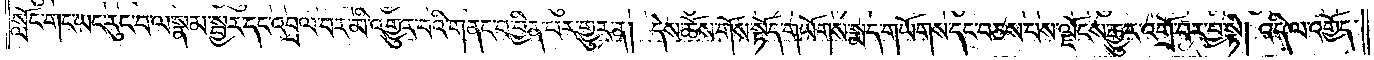སློང་གང་ཡང་རུང་བ་ལ་སྣམ་སྦྱར་དང་འབྲལ་བར་མི་འགྱུར་བའི་གནང་བ་བྱིན་པར་གྱུར་ན། དེས་ཆོས་གོས་སྟོད་གཡོགས་སྨད་གཡོགས་དང་བཅས་པས་ལྗོངས་རྒྱུར་འགྲོ་བར་བྱ་སྟེ། འདི་ལ་འགྱོད་
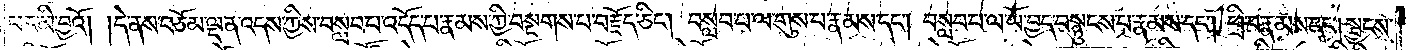པར་མི་བྱའོ། །དེ་ནས་བཅོམ་ལྡན་འདས་ཀྱིས་བསླབ་པ་འདོད་པ་རྣམས་ཀྱི་བསྔགས་པ་བརྗོད་ཅིང༌། བསླབ་པ་ལ་གུས་པ་རྣམས་དང༌། བསླབ་པ་ལ་ཡོ་བྱད་བསྙུངས་པ་རྣམས་དང༌། ཕྲི་བ་རྣམས་དང༌། སྦྱངས་
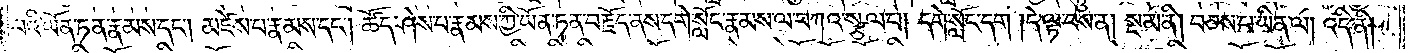པའི་ཡོན་ཏན་རྣམས་དང༌། མཛེས་པ་རྣམས་དང༌། ཚོད་ཤེས་པ་རྣམས་ཀྱི་ཡོན་ཏན་བརྗོད་ནས་དགེ་སློང་རྣམས་ལ་བཀའ་སྩལ་པ། དགེ་སློང་དག །དེ་ལྟ་བས་ན། སྔ་མ་ནི། བཅས་པ་ཡིན་ལ། འདི་ནི།
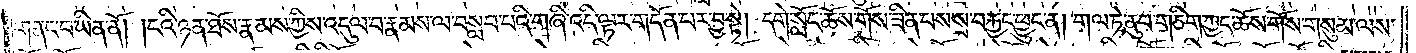གནང་བ་ཡིན་ནོ། །ངའི་ཉན་ཐོས་རྣམས་ཀྱིས་འདུལ་བ་རྣམས་ལ་བསླབ་པའི་གཞི་འདི་ལྟར་གདོན་པར་བྱ་སྟེ། དགེ་སློང་ཆོས་གོས་ཟིན་པས་སྲ་བརྐྱང་ཕྱུང་ན། གལ་ཏེ་ནུབ་གཅིག་ཀྱང་ཆོས་གོས་གསུམ་ལས་
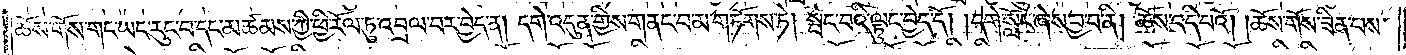ཆོས་གོས་གང་ཡང་རུང་བ་དང་མཚམས་ཀྱི་ཕྱི་རོལ་ཏུ་འབྲལ་བར་བྱེད་ན། དགེ་འདུན་གྱིས་གནང་བ་མ་གཏོགས་ཏེ། སྤང་བའི་ལྟུང་བྱེད་དོ། །དགེ་སློང་ཞེས་བྱ་བ་ནི། ཆོས་འདི་པའོ། །ཆོས་གོས་ཟིན་པས་
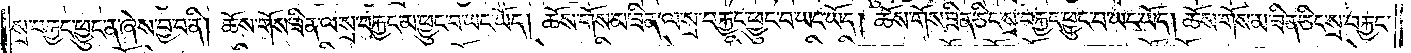སྲ་བརྐྱང་ཕྱུང་ན་ཞེས་བྱ་བ་ནི། ཆོས་གོས་ཟིན་ལ་སྲ་བརྐྱང་མ་ཕྱུང་བ་ཡང་ཡོད། ཆོས་གོས་མ་ཟིན་ལ་སྲ་བརྐྱང་ཕྱུང་བ་ཡང་ཡོད། ཆོས་གོས་ཟིན་ཅིང་སྲ་བརྐྱང་ཕྱུང་བ་ཡང་ཡོད། ཆོས་གོས་མ་ཟིན་ཅིང་སྲ་བརྐྱང་
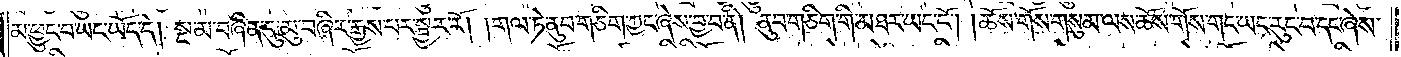མ་ཕྱུང་བ་ཡང་ཡོད་དེ། སྔ་མ་བཞིན་དུ་མུ་བཞིར་རྒྱས་པར་སྦྱར་རོ། །གལ་ཏེ་ནུབ་གཅིག་ཀྱང་ཞེས་བྱ་བ་ནི། ནུབ་གཅིག་གི་མཐར་ཡང་ངོ༌། །ཆོས་གོས་གསུམ་ལས་ཆོས་གོས་གང་ཡང་རུང་བ་དང་ཞེས་
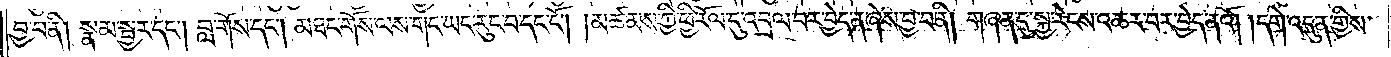བྱ་བ་ནི། སྣམ་སྦྱར་དང༌། བླ་གོས་དང༌། མཐང་གོས་ལས་གང་ཡང་རུང་བ་དང་ངོ༌། །མཚམས་ཀྱི་ཕྱི་རོལ་དུ་འབྲལ་བར་བྱེད་ན་ཞེས་བྱ་བ་ནི། གཞན་དུ་སྐྱ་རེངས་འཆར་བར་བྱེད་ནའོ། །དགེ་འདུན་གྱིས་
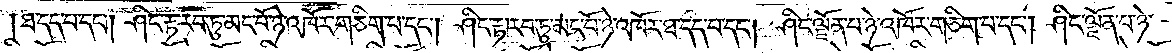ཐ་དད་པ་དང༌། ཤིང་རྟ་རབ་ཏུ་མང་པོ་ཉེ་འཁོར་གཅིག་པ་དང༌། ཤིང་རྟ་རབ་ཏུ་མང་པོ་ཉེ་འཁོར་ཐ་དད་པ་དང༌། ཤིང་ལྗོན་པ་ཉེ་འཁོར་གཅིག་པ་དང༌། ཤིང་ལྗོན་པ་ཉེ་
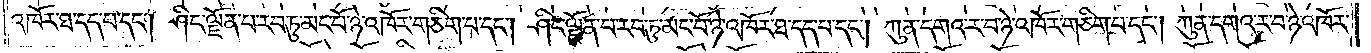འཁོར་ཐ་དད་པ་དང༌། ཤིང་ལྗོན་པ་རབ་ཏུ་མང་པོ་ཉེ་འཁོར་གཅིག་པ་དང༌། ཤིང་ལྗོན་པ་རབ་ཏུ་མང་པོ་ཉེ་འཁོར་ཐ་དད་པ་དང༌། ཀུན་དགའ་ར་བ་ཉེ་འཁོར་གཅིག་པ་དང༌། ཀུན་དགའ་ར་བ་ཉེ་འཁོར་
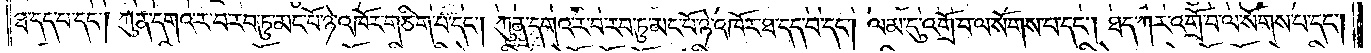ཐ་དད་པ་དང༌། ཀུན་དགའ་ར་བ་རབ་ཏུ་མང་པོ་ཉེ་འཁོར་གཅིག་པ་དང༌། ཀུན་དགའ་ར་བ་རབ་ཏུ་མང་པོ་ཉེ་འཁོར་ཐ་དད་པ་དང༌། ལམ་དུ་འགྲོ་བ་ལ་སོགས་པ་དང༌། ཐད་ཀར་འགྲོ་བ་ལ་སོགས་པ་དང༌།
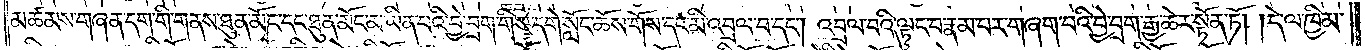མཚམས་གཞན་དག་གི་གནས་ཐུན་མོང་དང་ཐུན་མོང་མ་ཡིན་པའི་བྱེ་བྲག་གིས་དགེ་སློང་ཆོས་གོས་དང་མི་འབྲལ་བ་དང༌། འབྲལ་བའི་ལྟུང་བ་རྣམ་པར་གཞག་པའི་བྱེ་བྲག་རྒྱ་ཆེར་སྟོན་ཏོ། །དེ་ལ་ཁྱིམ་
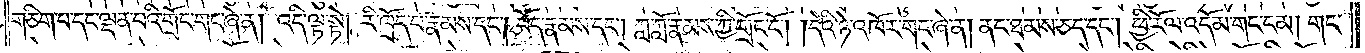གཅིག་པ་དང་ལྡན་པའི་གྲོང་གང་ཞེ་ན། འདི་ལྟ་སྟེ། རི་ཁྲོད་པ་རྣམས་དང༌། བོད་རྣམས་དང༌། ཀླ་ཀློ་རྣམས་ཀྱི་གྲོང་ངོ༌། །དེའི་ཉེ་འཁོར་གང་ཞེ་ན། ནང་ཐམས་ཅད་དང༌། ཕྱི་རོལ་འདོམ་གང་ངམ། གང་
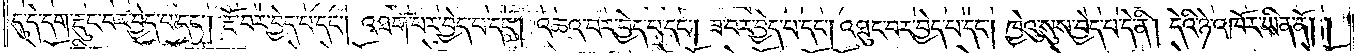དུ་དེ་དག་རྡུང་བར་བྱེད་པ་དང༌། རྡོ་བར་བྱེད་པ་དང༌། འཐག་པར་བྱེད་པ་དང༌། འཆའ་བར་བྱེད་པ་དང༌། ཟ་བར་བྱེད་པ་དང༌། འཐུང་བར་བྱེད་པ་དང༌། ཁྱེའུ་སུས་བྱེད་པ་དེ་ནི། དེའི་ཉེ་འཁོར་ཡིན་ནོ། །
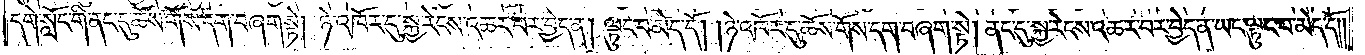དགེ་སློང་གི་ནང་དུ་ཆོས་གོས་དག་བཞག་སྟེ། ཉེ་འཁོར་དུ་སྐྱ་རེངས་འཆར་བར་བྱེད་ན། ལྟུང་བ་མེད་དོ། །ཉེ་འཁོར་དུ་ཆོས་གོས་དག་བཞག་སྟེ། ནང་དུ་སྐྱ་རེངས་འཆར་བར་བྱེད་ན་ཡང་ལྟུང་བ་མེད་དོ༎
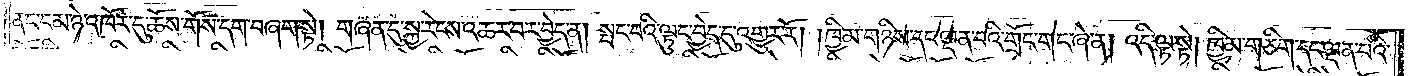ནང་ངམ་ཉེ་འཁོར་དུ་ཆོས་གོས་དག་བཞག་སྟེ། གཞན་དུ་སྐྱ་རེངས་འཆར་བར་བྱེད་ན། སྤང་བའི་ལྟུང་བྱེད་དུ་འགྱུར་རོ། །ཁྱིམ་གཉིས་དང་ལྡན་པའི་གྲོང་གང་ཞེ་ན། འདི་ལྟ་སྟེ། ཁྱིམ་གཅིག་དང་ལྡན་པའི་
